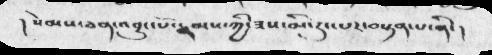། སེམས་ཅན་འབྱུང་པོ་རྣམས་ཀྱི་ཟས་མི་རུང་པར་བསྟན་པ་ནི་།
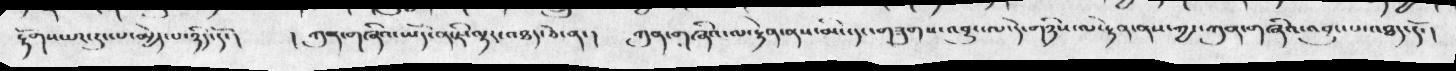རྟོགས་པར་རུང་པ་མྱེད་པ་ཉིད་དོ་།    ། ཀུན་གཞིའ་ཡོད་ན་ཇི་ལྟར་འཐད་ཅེ་ན་།  ཀུན་གཞིའ་ལ་རྟེན་ནས་མིང་དང་གཟུགས་འབྱུང་ལ་དེ་གཉིས་ལ་རྟེན་ནས་ཀྱང་ཀུན་གཞིའ་འབྱུང་པ་འཐད་དོ་།
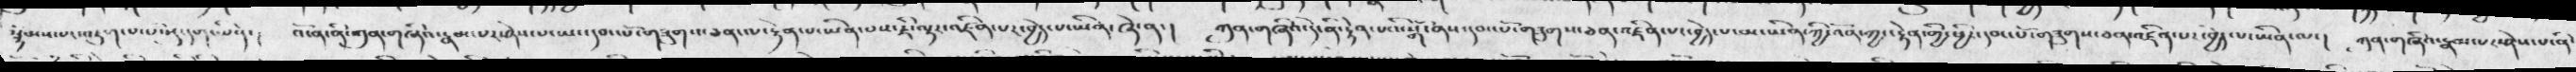སྙོམས་པར་འཇུག་པ་ཡོངསསུ་དག་ཡིན་།   འོ་ན་ནི་ཀུན་གཞིའ་རྣམ་པར་ཤེས་པ་ཡང་དབང་པོ་གཟུགས་ཅན་ལ་རྟེན་པ་ཡིན་པས་ཇི་ལྟར་འཛིན་པར་བྱེད་པ་ཡིན་ཞེ་ན་།   ཀུན་གཞིའ་དེ་ནི་རྟེན་པའི་སྒོ་ནས་དབང་པོ་གཟུགས་ཅན་འཛིན་པར་བྱེད་པ་མ་ཡིན་ཀྱི་འོན་ཀྱང་རྟེན་གྱི་ཕྱིར་དབང་པོ་གཟུགས་ཅན་འཛིན་པར་བྱེད་པ་ཡིན་ལ་།   ཀུན་གཞིའ་རྣམ་པར་ཤེས་པ་ནི་
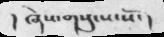། ཞེས་གསུངས་སོ་།
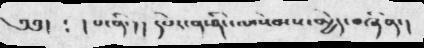༄༅།  ༴  ། པ་ནི་།།  དཔེར་ན་ཤིང་ལ་སེམས་མྱེད་བཞིན་།
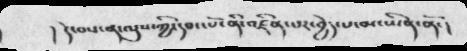།  དེ་བས་ན་ལུས་ཀྱི་དབང་པོ་ནི་འཛིན་པར་བྱེད་པ་མ་ཡིན་ནོ་།
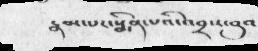རྣམ་པར་སྨིན་པའི་འབྲས་བུའ
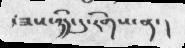་ཟས་ཉིད་དུ་རིགས་ན་།
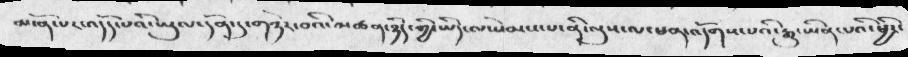མངོན་པར་འདོད་པའི་ཡུལ་དོན་དུ་གཉེར་བའི་མཚན་ཉིད་ཀྱི་ཡིད་ལ་སེམས་པ་ནི་ལུས་ལ་ཕན་འདོགས་པའི་རྒྱུ་ཡིན་པའི་ཕྱིར་
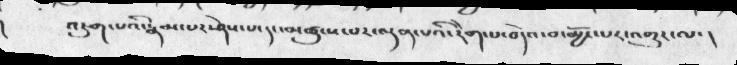འཇུག་པའི་རྣམ་པར་ཤེས་པ་དང་མཚུངས་པར་ལྡན་པའི་རེག་པ་བདེའ་བ་མྱོང་པར་འགྱུར་ལ་།
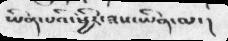ཡིན་པའི་ཕྱིར་ཤས་ཡིན་ལ་།
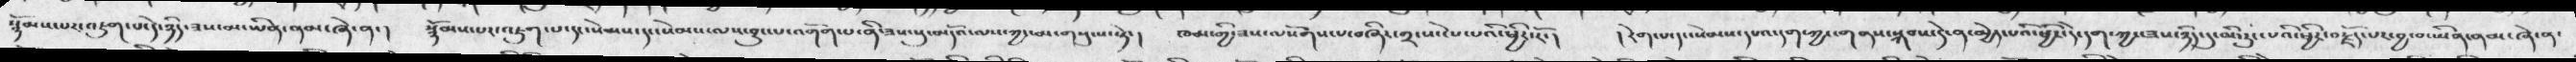སྙོམས་པར་འཇུག་པ་དེ་ཉིད་ཟས་མ་ཡིན་ནམ་ཞེ་ན་།  སྙོམས་པར་འཇུག་པ་དང་སེམས་དང་སེམས་ལས་བྱུང་པ་འགོག་པ་ནི་ཟས་སུ་མདོ་ལས་ཀྱང་མ་གསུངས་སྟེ་།  ཁམ་ཀྱི་ཟས་ལསོགས་པ་བཞིར་གྲངས་ངེས་པའི་ཕྱིར་རོ་།  །རེག་པ་དང་སེམས་དཔའ་དག་ཀྱང་གནས་སྐབས་དེ་ན་མྱེད་པའི་ཕྱིར་དེ་ན་མྱེད་པའི་ཕྱིར་དེ་དག་ཀྱང་ཟས་ཉིད་དུ་མི་རུང་པའི་ཕྱིར་བརྗོད་པར་བྱ་བ་ཡིན་ནམ་ཞེ་ན་
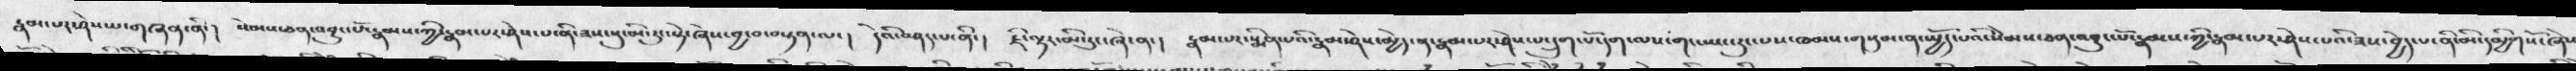རྣམ་པར་ཤེས་པ་གཞན་ནི་།  སེམས་ཅན་འབྱུང་པོ་རྣམས་ཀྱི་རྣམ་པར་ཤེས་པ་ནི་ཟས་སུ་མི་རུང་སྟེ་ཞེས་བྱ་བ་བསྟན་ལ་། དེའི་བཤད་པ་ནི་།  ཇི་ལྟར་མི་རུང་ཞེ་ན་།  རྣམ་པར་སྨིན་པའི་རྣམ་ཤེས་མྱེད་ན་རྣམ་པར་ཤེས་པ་དྲུག་པོ་དག་ལས་གང་ཡང་རུང་པས་ཁམས་གསུམ་ན་སྤྱོད་པའི་སེམས་ཅན་འབྱུང་པོ་རྣམས་ཀྱི་རྣམ་པར་ཤེས་པའི་ཟས་བྱེད་པ་ནི་དམྱིགསོ་ཞེས
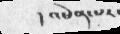།འཕེན་པར་
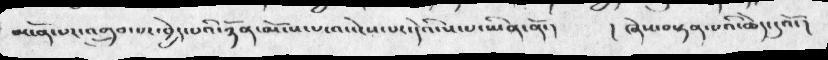མངོན་པར་འགྲུབ་པར་བྱེད་པའི་ཉོན་མོངས་པ་འ་་ངེས་པར་དེའི་ས་པ་ཡིན་ནོ་།    ། ཞེས་བསྟན་པའི་ཆེད་དུའོ་།
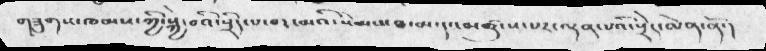གཟུགས་ཁམས་ཀྱི་སྐྱེ་བའི་སྲིད་པ་བར་མའི་སེམས་ཐ་མ་དང་མཚུངས་པར་ལྡན་པའི་སྲེད་ལེན་ནོ་།
